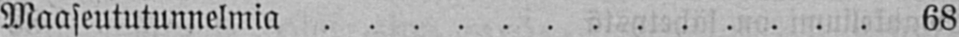Maaseututunnelmia 68
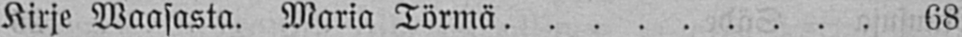Kirje Waasasta. Maria Törmä 68
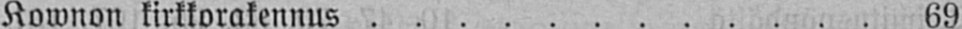Kownon kirkkorakennus 69
